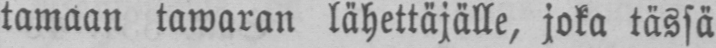tamaan tawaran lähettäjälle, joka tässä
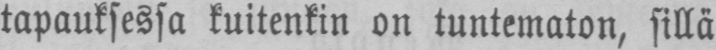tapauksessa kuitenkin on tuntematon, sillä
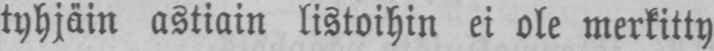tyhjäin astioin listoihin ei ole merkitty
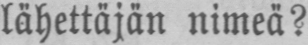lähettäjän nimeä?
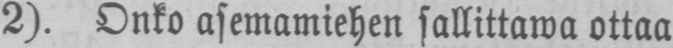2). Onko asemamiehen sallittawa ottaa
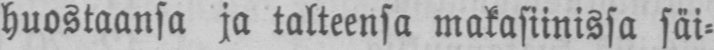huostaansa ja talteensa makasiinissa säi-
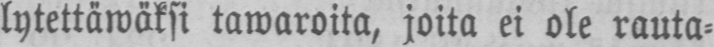lytettäwäksi tawaroita, joita ei ole rauta-
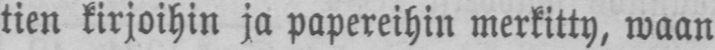tien kirjoihin ja papereihin merkitty, waan
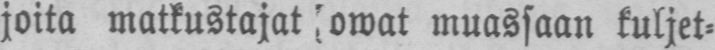joita matkustajat owat muassaan kuljet-
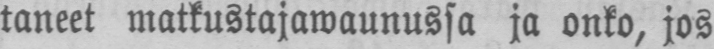taneet matkustajawaunussa ja onko, jos
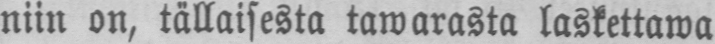niin on, tällaisesta tawarasta laskettawa
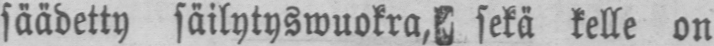säädetty säilytyswuokra, sekä kelle on
